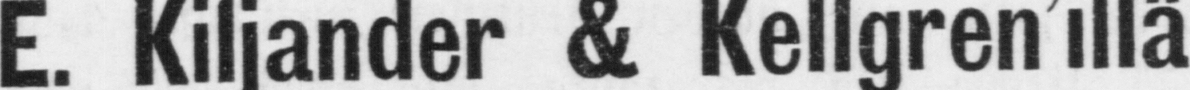JOULUNÄYTTELY
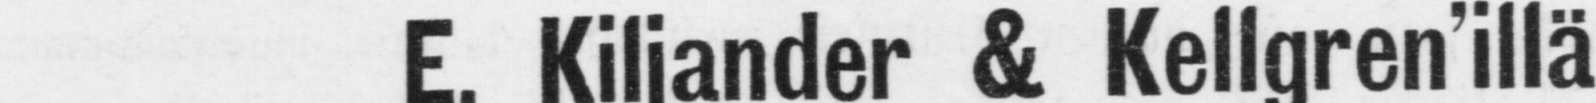E. Kiljander & Kellgren'illä
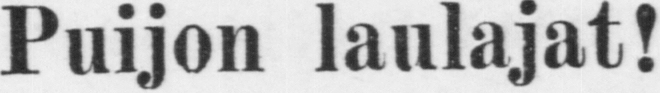Puijon laulajat!
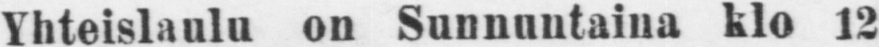Yhteislaulu on Sunnuntaina klo 12
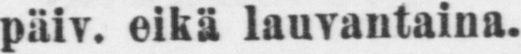päiv. eikä lauvautaina.
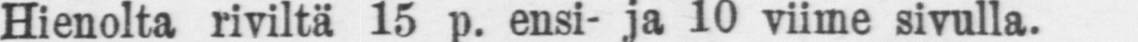Ilmoitushinta:
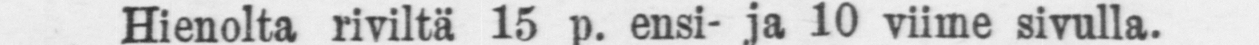Hienolta riviltä 15 p. ensi- ja 10 viime sivulla,
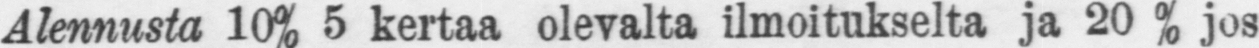Alennusta 10% 5 kertaa olevalta ilmoitukselta ja 20 % jos
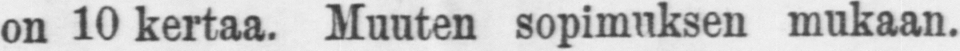on 10 kertaa. Muuten sopimuksen mukaan.
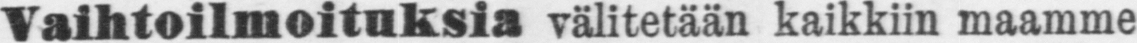Vaihtoilmoituksia välitetään kaikkiin maamme
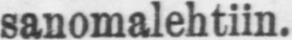sanomalehtiin.
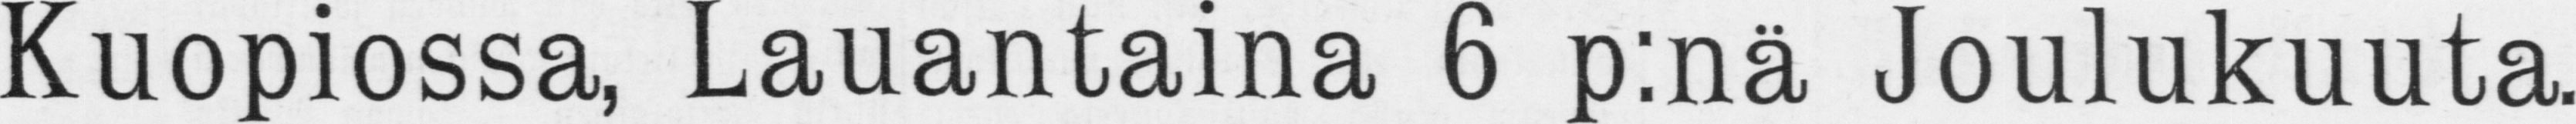Kuopiossa, lauantaina 6 p:nä joulukuuta.
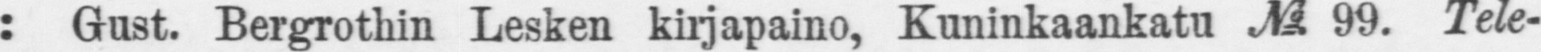Konttori: Gust. Lesken kirjapaino, Kuninkaankatn No.99. Tele-
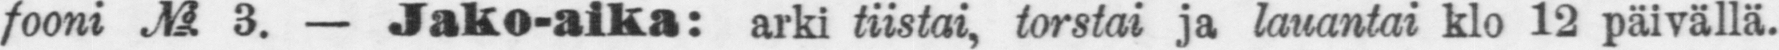fooni No.3. — arki tiistai, torstai ja lauantai klo 12 päivällä.
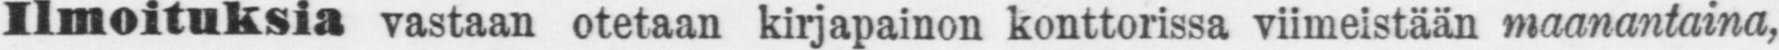Ilmoituksia vastaan otetaan kirjapainon konttorissa viimeistään maanantaina, keskiviik-
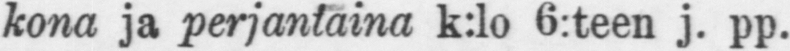kona ja perjantaina k:1o 6:teen j. pp.
